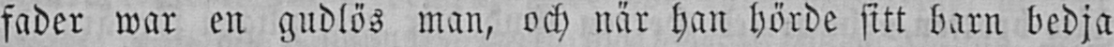fader war en gudlös man, och när han hörde sitt barn bedja
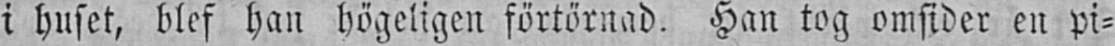i huset, blef han högeligen förtörnad. Han tog omsider en pi-
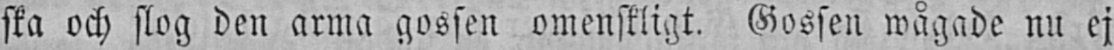ska och slog den arma gossen omenskligt. Gossen wågade nu ej
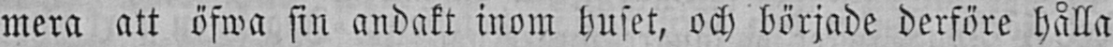mera att öfwa sin andakt inom huset, och började derföre hålla
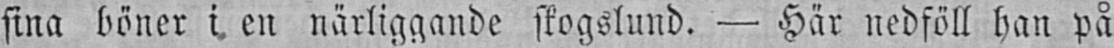sina böner i en närliggande skogslund. — Här nedföll han på
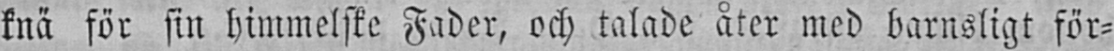knä för sin himmelske Fader, och talade åter med barnsligt för-
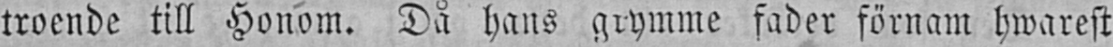troende till Honom. Då hans grymme fader förnam hwarest
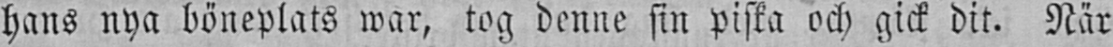hans nya böneplats war, tog denne sin piska och gick dit. När
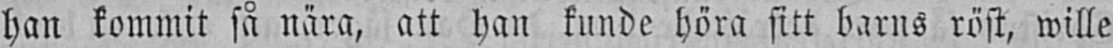han kommit så nära, att han kunde höra sitt barns röst, wille
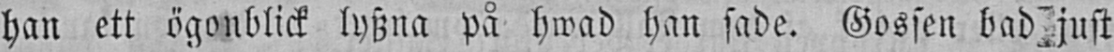han ett ögonblick lyszna på hwad han sade. Gossen bad just
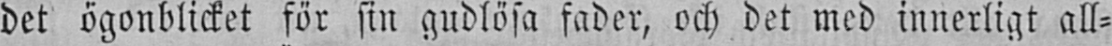det ögonblicket för sin gudlösa fader, och det med innerligt all-
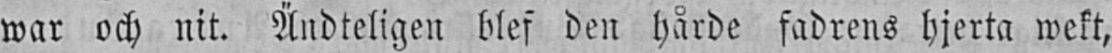war och nit. Ändteligen blef den hårde fadrens hjerta wekt,
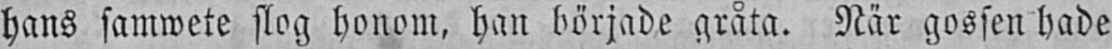hans samwete slog honom, han började gråta. När gossen hade
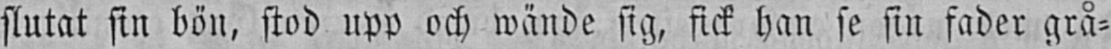slutat sin bön, stod upp och wände sig, fick han se sin fader grå-
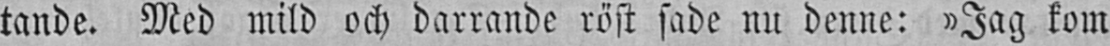tande. Med mild och darrande röst sade nu denne: »Jag kom
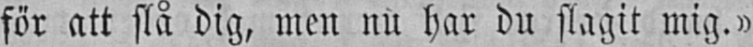för att slå dig, men nu har du slagit mig.»
